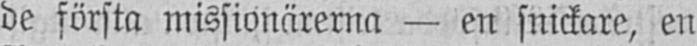de första missionärerna — en snickare, en
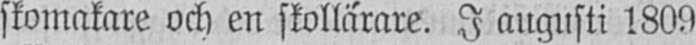skomakare och en skollärare. I augusti 1809
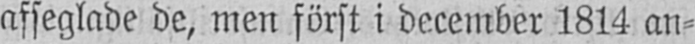afseglade de, men först i december 1814 an-
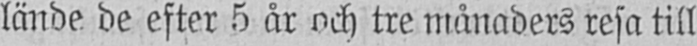lände de efter 5 år och tre månaders resa till
